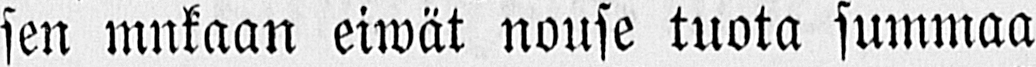sen mukaan eiwät nouse tuota summaa
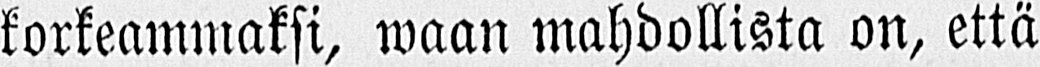korkeammaksi, waan mahdollista on, että
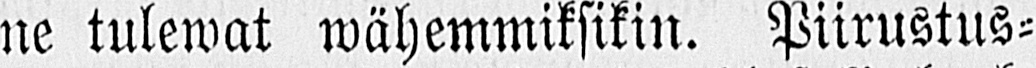ne tulewat wähemmiksikin. Piirustus-
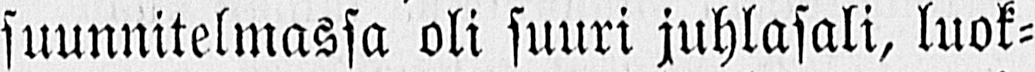suunnitelmassa oli suuri juhlasali, luok-
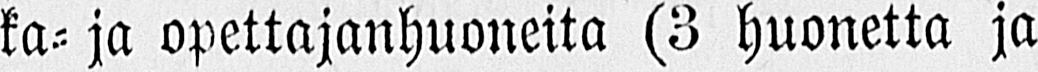ka- ja opettajanhuoneita (3 huonetta ja
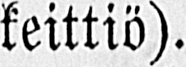keittiö).
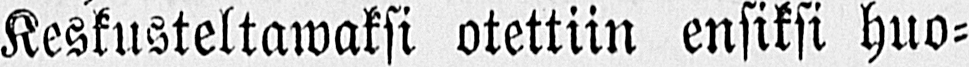Keskusteltawaksi otettiin ensiksi huo-
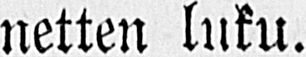netten luku.
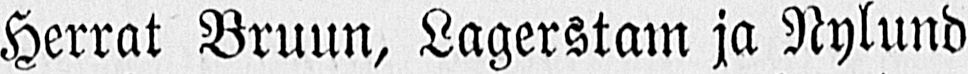Herrat Bruun, Lagerstam ja Nylund
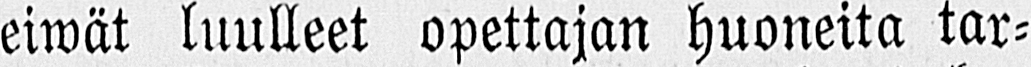eiwät luulleet opettajan huoneita tar-
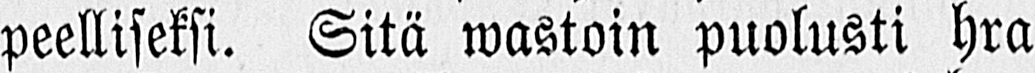peelliseksi. Sitä wastoin puolusti hra
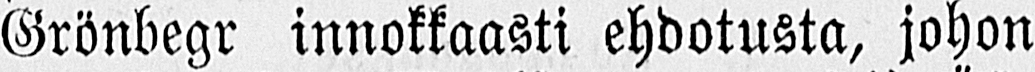Grönbegr innokkaasti ehdotusta, johon
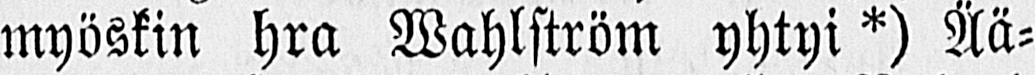myöskin hra Wahlström yhtyi *) Ää-
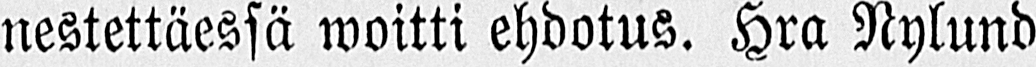nestettäessä woitti ehdotus. Hra Nylund
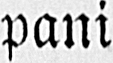pani wastaluaseen.
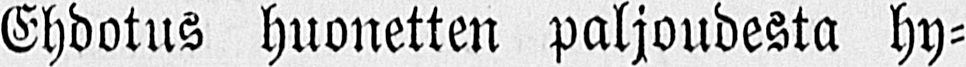Ehdotus huonetten paljoudesta hy-
